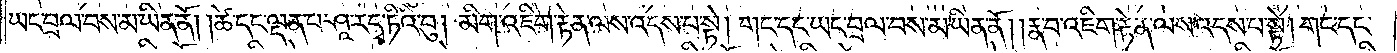ཡང་བྲལ་བས་མ་ཡིན་ནོ། །ཚེ་དང་ལྡན་པ་ཤཱ་ར་དྭ་ཏིའི་བུ། མིག་འཇིག་རྟེན་ལས་འདས་པ་སྟེ། གང་དང་ཡང་བྲལ་བས་མ་ཡིན་ནོ། །རྣ་བ་འཇིག་རྟེན་ལས་འདས་པ་སྟེ། གང་དང་
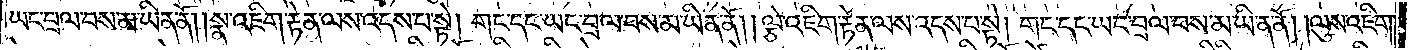ཡང་བྲལ་བས་མ་ཡིན་ནོ། །སྣ་འཇིག་རྟེན་ལས་འདས་པ་སྟེ། གང་དང་ཡང་བྲལ་བས་མ་ཡིན་ནོ། །ལྕེ་འཇིག་རྟེན་ལས་འདས་པ་སྟེ། གང་དང་ཡང་བྲལ་བས་མ་ཡིན་ནོ། །ལུས་འཇིག་
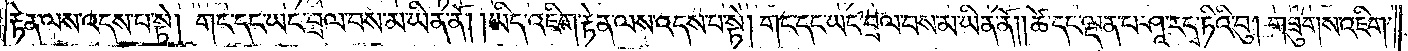རྟེན་ལས་འདས་པ་སྟེ། གང་དང་ཡང་བྲལ་བས་མ་ཡིན་ནོ། །ཡིད་འཇིག་རྟེན་ལས་འདས་པ་སྟེ། གང་དང་ཡང་བྲལ་བས་མ་ཡིན་ནོ། །ཚེ་དང་ལྡན་པ་ཤཱ་ར་དྭ་ཏིའི་བུ། གཟུགས་འཇིག་
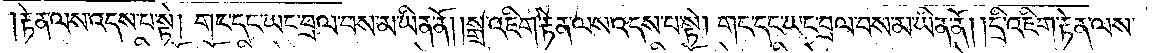རྟེན་ལས་འདས་པ་སྟེ། གང་དང་ཡང་བྲལ་བས་མ་ཡིན་ནོ། །སྒྲ་འཇིག་རྟེན་ལས་འདས་པ་སྟེ། གང་དང་ཡང་བྲལ་བས་མ་ཡིན་ནོ། །དྲི་འཇིག་རྟེན་ལས་
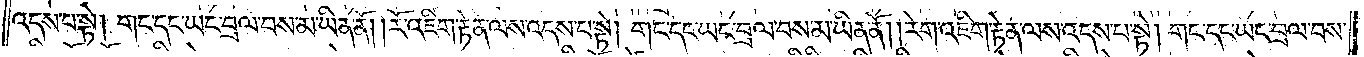འདས་པ་སྟེ། གང་དང་ཡང་བྲལ་བས་མ་ཡིན་ནོ། །རོ་འཇིག་རྟེན་ལས་འདས་པ་སྟེ། གང་དང་ཡང་བྲལ་བས་མ་ཡིན་ནོ། །རེག་འཇིག་རྟེན་ལས་འདས་པ་སྟེ། གང་དང་ཡང་བྲལ་བས་
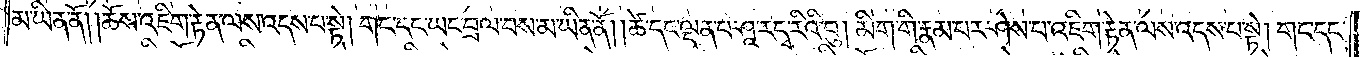མ་ཡིན་ནོ། །ཆོས་འཇིག་རྟེན་ལས་འདས་པ་སྟེ། གང་དང་ཡང་བྲལ་བས་མ་ཡིན་ནོ། །ཚེ་དང་ལྡན་པ་ཤཱ་ར་དྭ་ཏིའི་བུ། མིག་གི་རྣམ་པར་ཤེས་པ་འཇིག་རྟེན་ལས་འདས་པ་སྟེ། གང་དང་
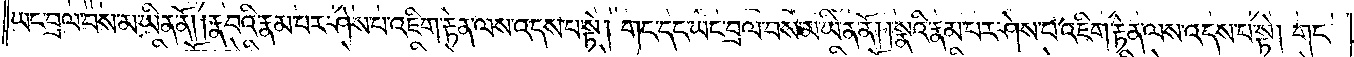ཡང་བྲལ་བས་མ་ཡིན་ནོ། །རྣ་བའི་རྣམ་པར་ཤེས་པ་འཇིག་རྟེན་ལས་འདས་པ་སྟེ། གང་དང་ཡང་བྲལ་བས་མ་ཡིན་ནོ། །སྣའི་རྣམ་པར་ཤེས་པ་འཇིག་རྟེན་ལས་འདས་པ་སྟེ། གང་
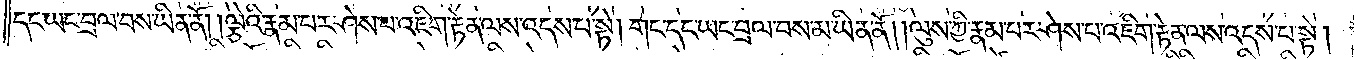དང་ཡང་བྲལ་བས་མ་ཡིན་ནོ། །ལྕེའི་རྣམ་པར་ཤེས་པ་འཇིག་རྟེན་ལས་འདས་པ་སྟེ། གང་དང་ཡང་བྲལ་བས་མ་ཡིན་ནོ། །ལུས་ཀྱི་རྣམ་པར་ཤེས་པ་འཇིག་རྟེན་ལས་འདས་པ་སྟེ།
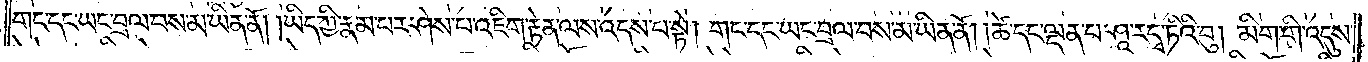གང་དང་ཡང་བྲལ་བས་མ་ཡིན་ནོ། །ཡིད་ཀྱི་རྣམ་པར་ཤེས་པ་འཇིག་རྟེན་ལས་འདས་པ་སྟེ། གང་དང་ཡང་བྲལ་བས་མ་ཡིན་ནོ། །ཚེ་དང་ལྡན་པ་ཤཱ་ར་དྭ་ཏིའི་བུ། མིག་གི་འདུས་
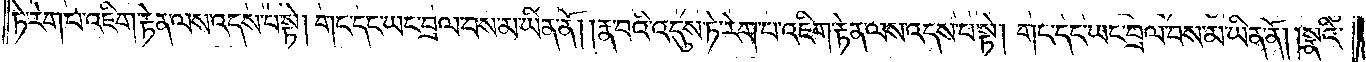ཏེ་རེག་པ་འཇིག་རྟེན་ལས་འདས་པ་སྟེ། གང་དང་ཡང་བྲལ་བས་མ་ཡིན་ནོ། །རྣ་བའི་འདུས་ཏེ་རེག་པ་འཇིག་རྟེན་ལས་འདས་པ་སྟེ། གང་དང་ཡང་བྲལ་བས་མ་ཡིན་ནོ། །སྣའི་
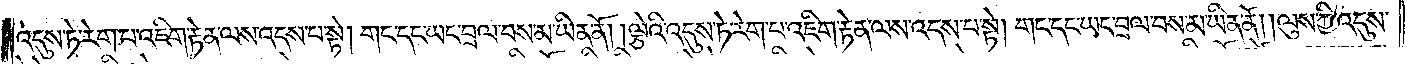འདུས་ཏེ་རེག་པ་འཇིག་རྟེན་ལས་འདས་པ་སྟེ། གང་དང་ཡང་བྲལ་བས་མ་ཡིན་ནོ། །ལྕེའི་འདུས་ཏེ་རེག་པ་འཇིག་རྟེན་ལས་འདས་པ་སྟེ། གང་དང་ཡང་བྲལ་བས་མ་ཡིན་ནོ། །ལུས་ཀྱི་འདུས་
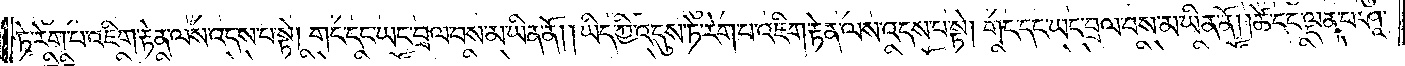ཏ་རེག་པ་འཇིག་རྟེན་ལས་འདས་པ་སྟེ། གང་དང་ཡང་བྲལ་བས་མ་ཡིན་ནོ། །ཡིད་ཀྱི་འདུས་ཏེ་རེག་པ་འཇིག་རྟེན་ལས་འདས་པ་སྟེ། གང་དང་ཡང་བྲལ་བས་མ་ཡིན་ནོ། །ཚེ་དང་ལྡན་པ་ཤཱ་
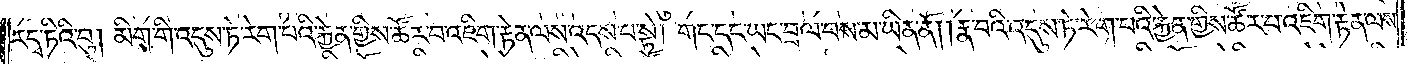ར་དྭ་ཏིའི་བུ། མིག་གི་འདུས་ཏེ་རེག་པའི་རྐྱེན་གྱིས་ཚོར་བ་འཇིག་རྟེན་ལས་འདས་པ་སྟེ། གང་དང་ཡང་བྲལ་བས་མ་ཡིན་ནོ། །རྣ་བའི་འདུས་ཏེ་རེག་པའི་རྐྱེན་གྱིས་ཚོར་བ་འཇིག་རྟེན་ལས་
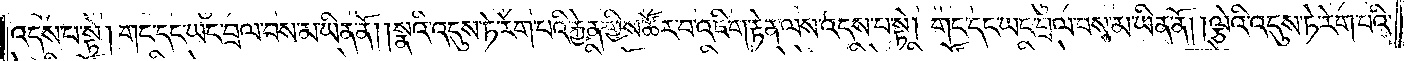འདས་པ་སྟེ། གང་དང་ཡང་བྲལ་བས་མ་ཡིན་ནོ། །སྣའི་འདུས་ཏེ་རེག་པའི་རྐྱེན་གྱིས་ཚོར་བ་འཇིག་རྟེན་ལས་འདས་པ་སྟེ། གང་དང་ཡང་བྲལ་བས་མ་ཡིན་ནོ། །ལྕེའི་འདུས་ཏེ་རེག་པའི་
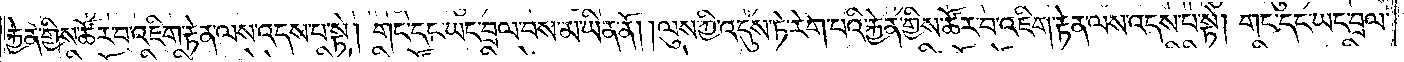རྐྱེན་གྱིས་ཚོར་བ་འཇིག་རྟེན་ལས་འདས་པ་སྟེ། གང་དང་ཡང་བྲལ་བས་མ་ཡིན་ནོ། །ལུས་ཀྱི་འདུས་ཏེ་རེག་པའི་རྐྱེན་གྱིས་ཚོར་བ་འཇིག་རྟེན་ལས་འདས་པ་སྟེ། གང་དང་ཡང་བྲལ་
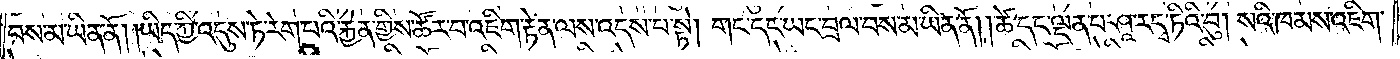བས་མ་ཡིན་ནོ། །ཡིད་ཀྱི་འདུས་ཏེ་རེག་པའི་རྐྱེན་གྱིས་ཚོར་བ་འཇིག་རྟེན་ལས་འདས་པ་སྟེ། གང་དང་ཡང་བྲལ་བས་མ་ཡིན་ནོ། །ཚེ་དང་ལྡན་པ་ཤཱ་ར་དྭ་ཏིའི་བུ། སའི་ཁམས་འཇིག་
